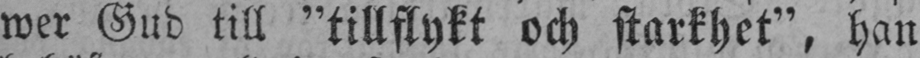wer Gud till "tillflykt och starkhet", han
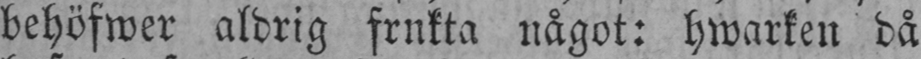behöfwer aldrig frukta något: hwarken då
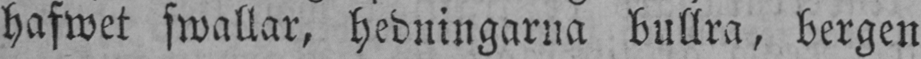hafwet swallar, hedningarna bullra, bergen
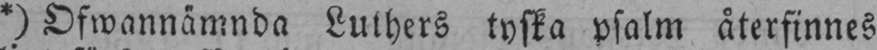*) Ofwannämnda Luthers tyska psalm återfinnes
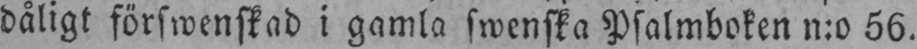dåligt förswenskad i gamla swenska Psalmboken n:o 56.
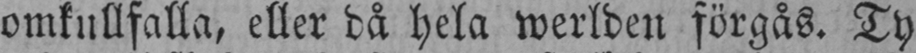omkullfalla, eller då hela werlden förgås. Ty
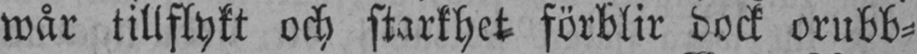wår tillflykt och starkhet förblir dock orubb-
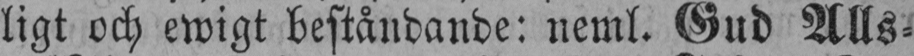ligt och ewigt beståndande: neml. Gud Alls-
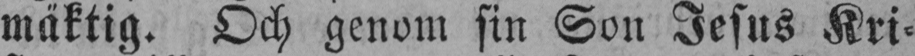mäktig. Och genom sin Son Jesus Kri-
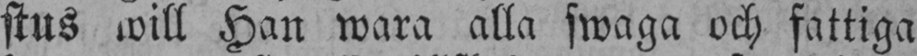stus will Han wara alla swaga och fattiga
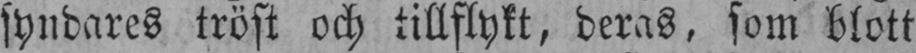syndares tröst och tillflykt, deras, som blott
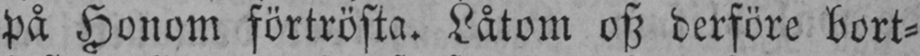på Honom förtrösta. Låtom osz derföre bort-
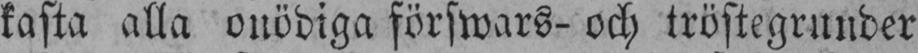kasta alla onödiga förswars- och tröstegrunder
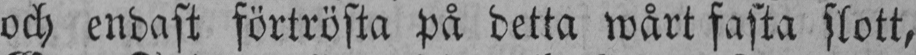och endast förtrösta på detta wårt fasta slott,
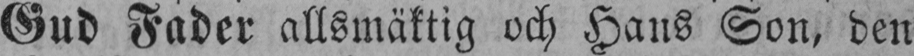Gud Fader allsmäktig och Hans Son, den
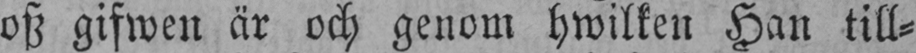osz gifwen är och genom hwilken Han till-
